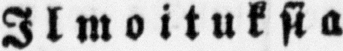Ilmoituksia
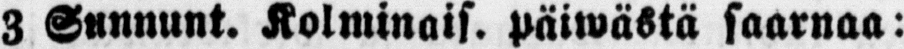3 Sunnunt. Kolminais. päiwästä saarnaa:
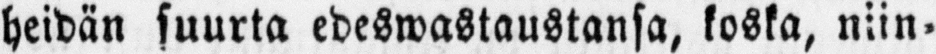heidän suurta edeswastaustansa, koska, niin-
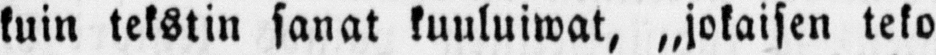kuin tekstin sanat kuuluiwat, „jokaisen teko
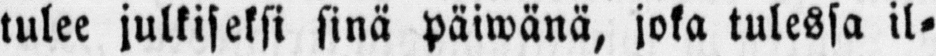tulee julkiseksi sinä päiwänä, joka tulessa il-
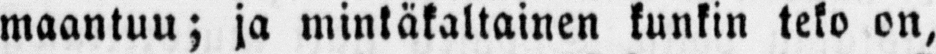maantuu; ja minkäkaltainen kunkin teko on,
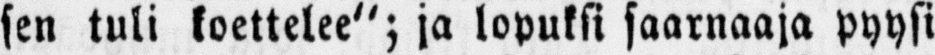sen tuli koettelee"; ja lopuksi saarnaaja pyysi
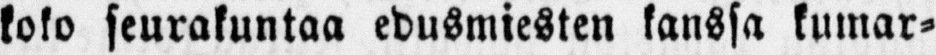koko seurakuntaa edusmiesten kanssa kumar-
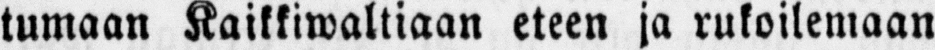tumaan Kaikkiwaltiaan eteen ja rukoilemaan
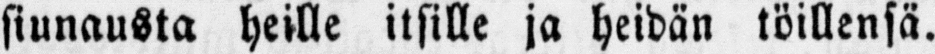siunausta heille itsille ja heidän töillensä.
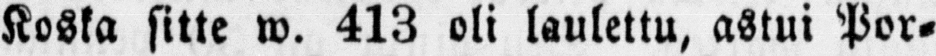Koska sitte w. 413 oli laulettu, astui Por-
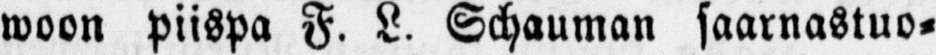woon piispa F. L. Schauman saarnastuo-
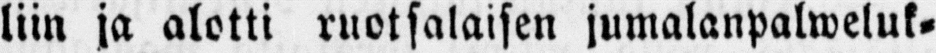liin ja alotti ruotsalaisen jumalanpalweluk-
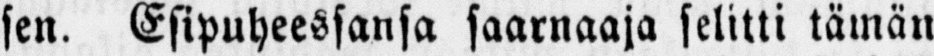sen. Esipuheessansa saarnaaja selitti tämän
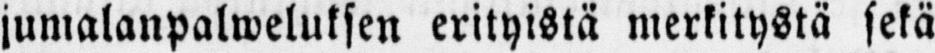jumalanpalweluksen erityistä merkitystä sekä
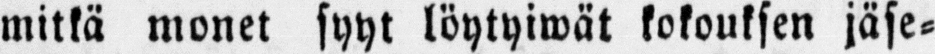mitkä monet syyt löytyiwät kokouksen jäse-
